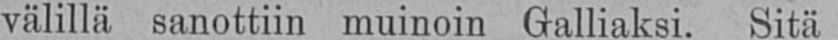välillä sanottiin muinoin Galliaksi. Sitä
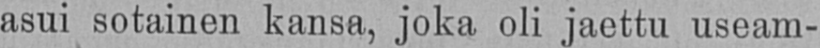asui sotainen kansa, joka oli jaettu useam-
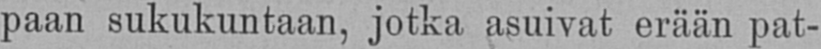paan sukukuntaan, jotka asuivat erään pat-
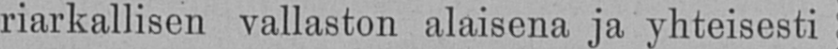riarkallisen vallaston alaisena ja yhteisesti
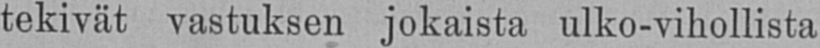tekivät vastuksen jokaista ulko-vihollista
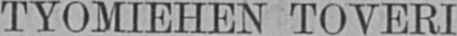TYÖMIEHEN TOVERI.
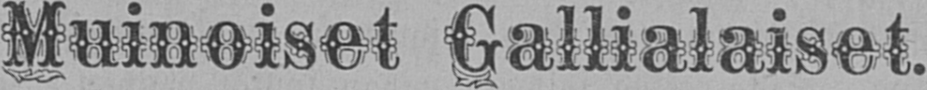Muinoset Gallialaiset.
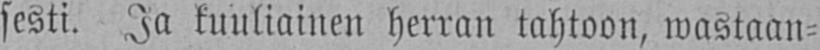sesti.Ja kuuliainen herran tahtoon, wastaan-
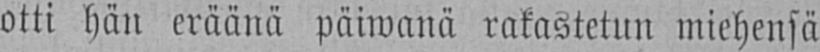otti hän eräänä päiwanä rakastetun miehensä
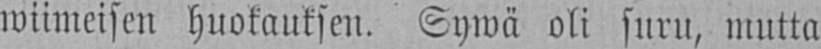wiimeisen huokauksen. Sywä oli suru, mutta
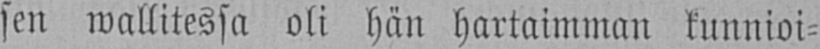sen wallitessa oli hän hartaimman kunnioi-
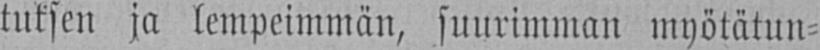tuksen ja lempeimmän, suurimman myötätun-
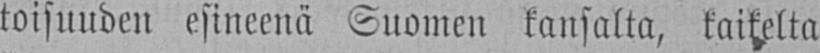toisuuden esineenä Suomen kansalta, kaikilta
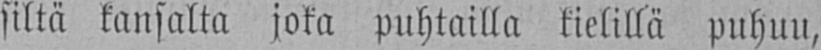siltä kansalta joka puhtailla kielillä puhuu,
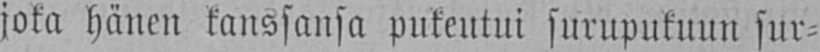joka hänen kanssansa pukeutui surupukuun sur-
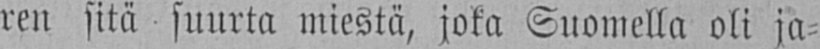ren sitä suurta miestä, joka Suomella oli ja-
